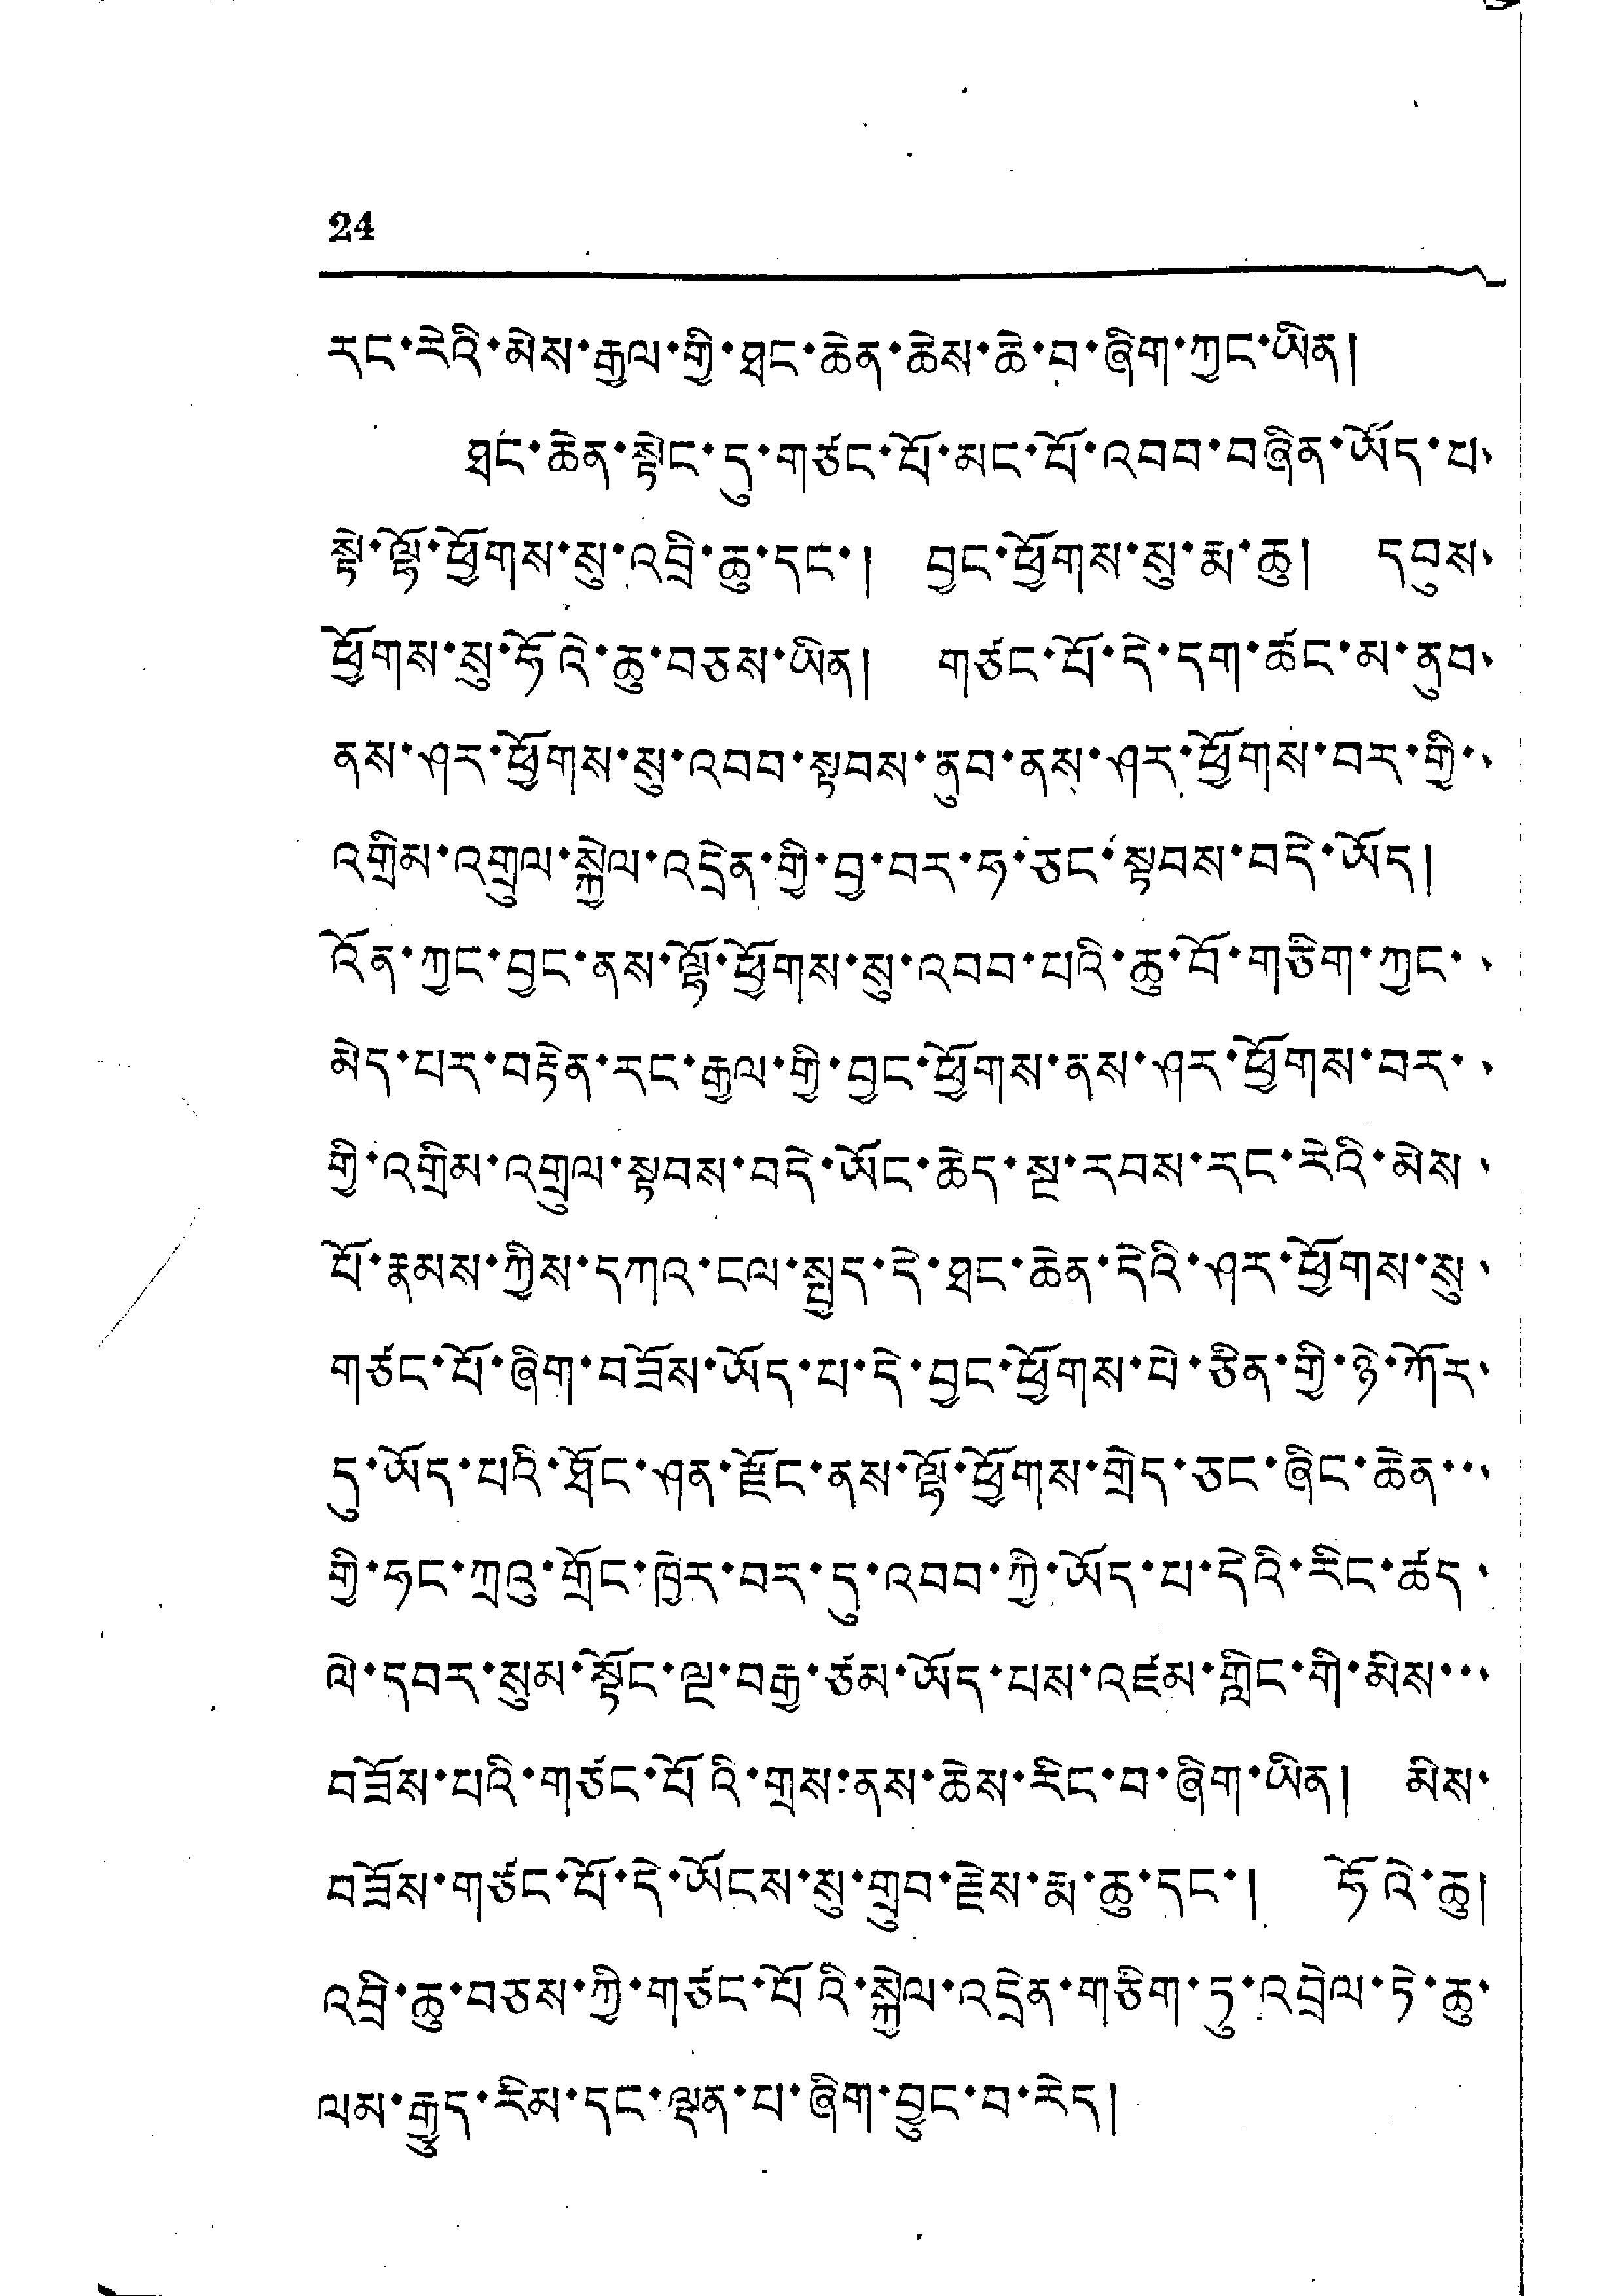24
རང་རེའི་མེས་རྒྱལ་གྱི་ཐང་ཆེན་ཆེས་ཆེ་བ་ཞིག་ཀྱང་ཡིན།
ཐང་ཆེན་སྟེང་དུ་གཙང་པོ་མང་པོ་འབབ་བཞིན་ཡོད་པ་
སྟེ་ལྷོ་ཕྱོགས་སུ་འབྲི་ཆུ་དང་། བྱང་ཕྱོགས་སུ་རྨ་ཆུ། དབུས་
ཕྱོགས་སུ་ཧོའེ་ཆུ་བཅས་ཡིན། གཙང་པོ་དེ་དག་ཚང་མ་ནུབ་
ནས་ཤར་ཕྱོགས་སུ་འབབ་སྟབས་ནུབ་ནས་ཤར་ཕྱོགས་བར་གྱི་་
འགྲིམ་འགྲུལ་སྐྱེལ་འདྲེན་གྱི་བྱ་བར་ཧ་ཅང་སྟབས་བདེ་ཡོད།
འོན་ཀྱང་བྱང་ནས་ལྷོ་ཕྱོགས་སུ་འབབ་པའི་ཆུ་བོ་གཅིག་ཀྱང་་
མེད་པར་བརྟེན་རང་རྒྱལ་གྱི་བྱང་ཕྱོགས་ནས་ཤར་ཕྱོགས་བར་་
གྱི་འགྲིམ་འགྲུལ་སྟབས་བདེ་ཡོང་ཆེད་སྔ་རབས་རང་རེའི་མེས་
པོ་རྣམས་ཀྱིས་དཀའ་ངལ་སྤྱད་དེ་ཐང་ཆེན་དེའི་ཤར་ཕྱོགས་སུ་
གཙང་པོ་ཞིག་བཟོས་ཡོད་པ་དེ་བྱང་ཕྱོགས་པེ་ཅིན་གྱི་ཉེ་ཀོར་
དུ་ཡོད་པའི་ཐོང་ཤན་རྫོང་ནས་ལྷོ་ཕྱོགས་གྲེད་ཅང་ཞིང་ཆེན་་་
གྱི་ཧང་ཀྲའུ་གྲོང་ཁྱེར་བར་དུ་འབབ་ཀྱི་ཡོད་པ་དེའི་རིང་ཚད་
ལེ་དབར་སུམ་སྟོང་ལྔ་བརྒྱ་ཙམ་ཡོད་པས་འཛམ་གླིང་གི་མིས་་་
བཟོས་པའི་གཅང་པོའི་གྲས་ནས་ཆེས་རིང་བ་ཞིག་ཡིན། མེས་
བཟོས་གཙང་པོ་དེ་ཡོངས་སུ་གྲུབ་རྗེས་རྨ་ཆུ་དང་། ཧོའེ་ཆུ།
འབྲི་ཆུ་བཅས་ཀྱི་གཅང་པོའི་སྐྱེལ་འདྲེན་གཅིག་ཏུ་འབྲེལ་ཏེ་ཆུ་
ལམ་རྒྱུད་རིམ་དང་ལྡན་པ་ཞིག་བྱུང་བ་རེད།
